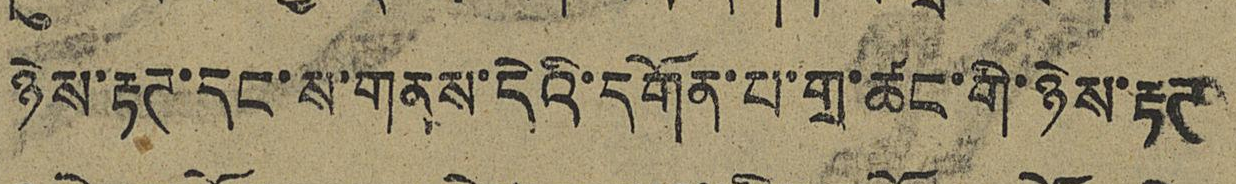ཉེས་རྟཊ་དང་ས་གནས་དེའི་དགོན་པ་གྲ་ཚང་གི་ཉེས་རྟཊ
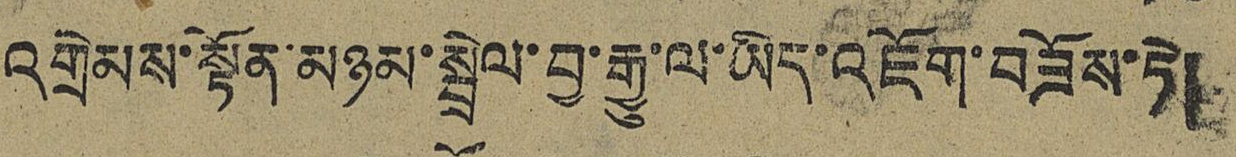འགྲེམས་སྟོན་མཉམ་སྦྲེལ་བྱ་རྒྱུ་ལ་ཡིད་འཇོག་བཟོས་ཏེ།
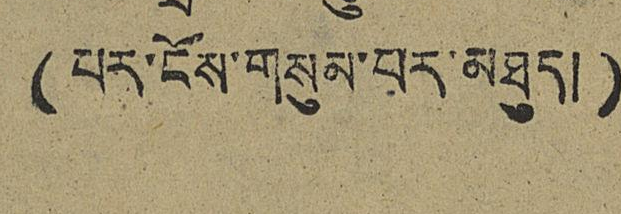(པར་ངོས་གསུམ་པར་མཐུད།)
